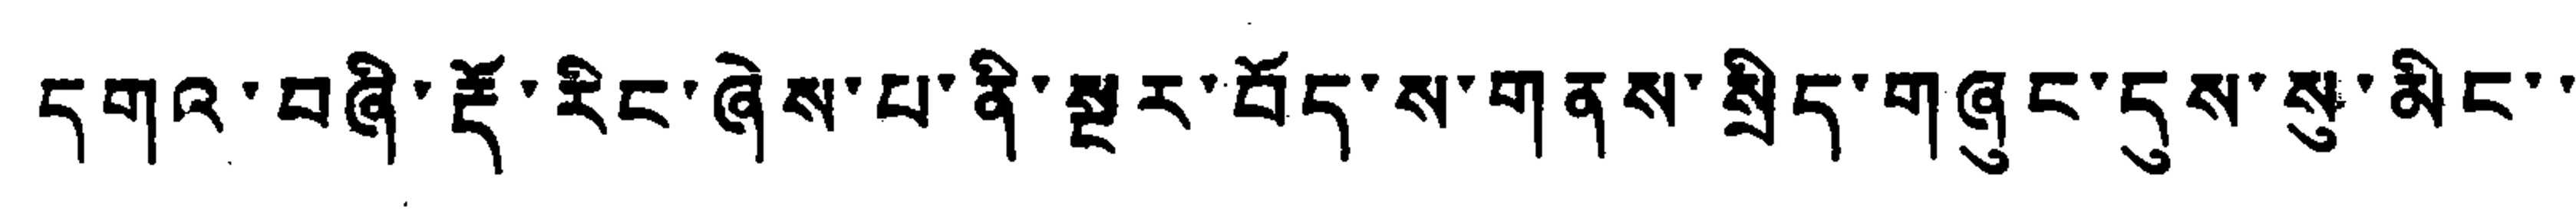དགའ་བཞི་རྡོ་རིང་ཞེས་པ་ནི་སྔར་བོད་ས་གནས་སྲིད་གཞུང་དུས་སུ་མིང་་
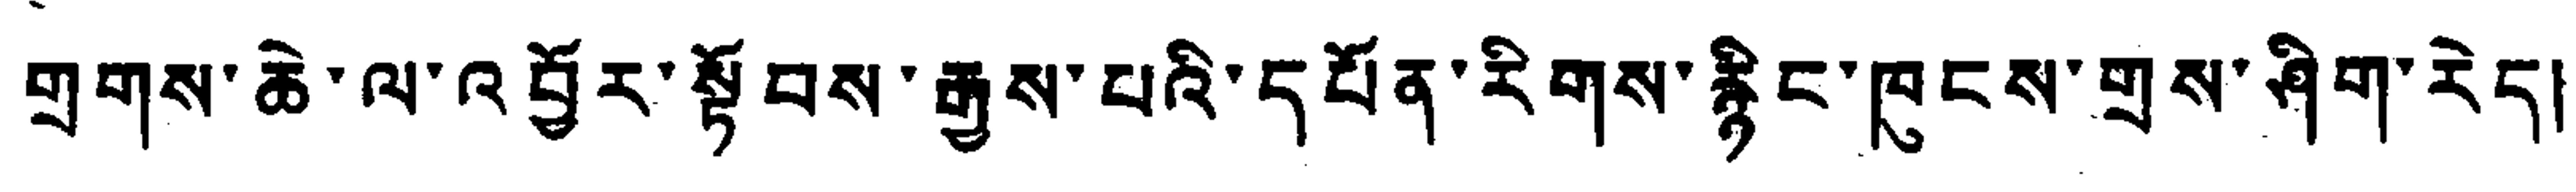གྲགས་ཆེ་ལ་འབྱོར་སྟོབས་རྒྱས་པའི་དཔོན་རིགས་རྙིང་ཁུངས་གྲས་ཤིག་རེད།
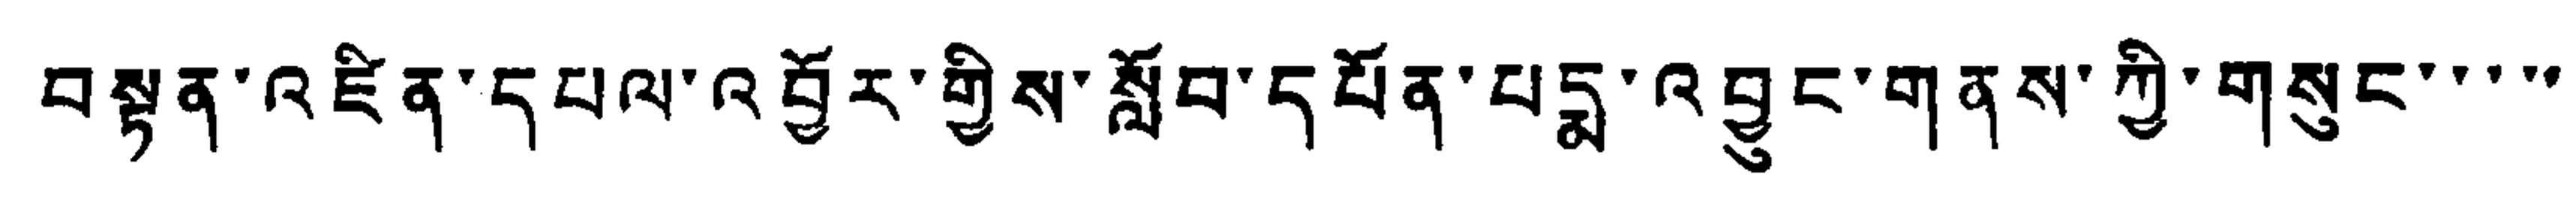བསྟན་འཛིན་དཔལ་འབྱོར་གྱིས་སློབ་དཔོན་པདྨ་འབྱུང་གནས་ཀྱི་གསུང་་་་་
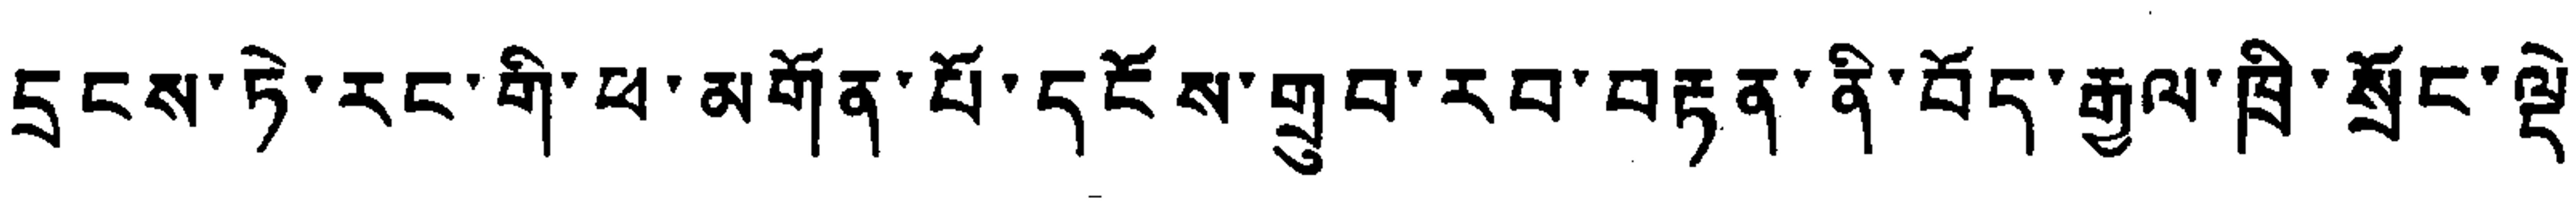དྲངས་ཏེ་རང་གི་ཕ་མགོན་པོ་དངོས་གྲུབ་རབ་བརྟན་ནི་བོད་རྒྱལ་ཁྲི་སྲོང་ལྡེ་
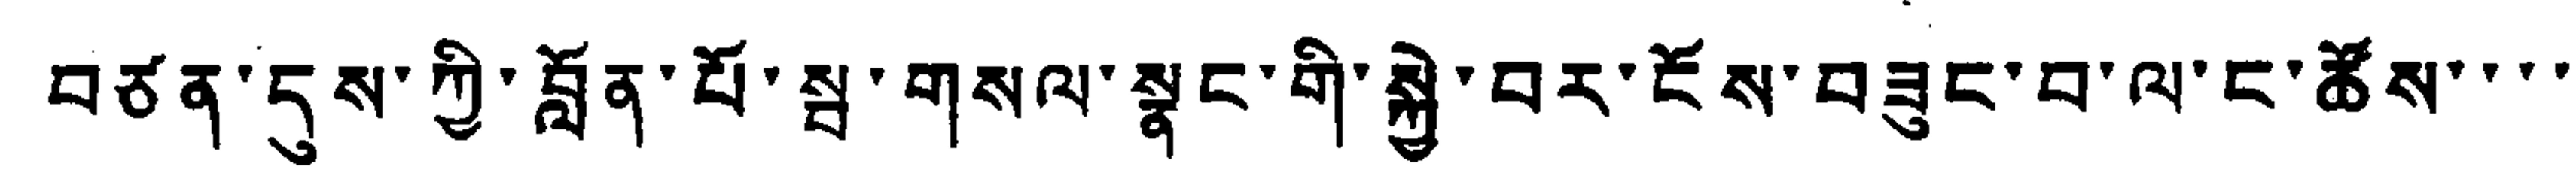བཙན་དུས་ཀྱི་བློན་པོ་སྦ་གསལ་སྣང་གི་སྐྱེ་བར་ངོས་བཟུང་བ་ལ་ང་ཚོས་་་་
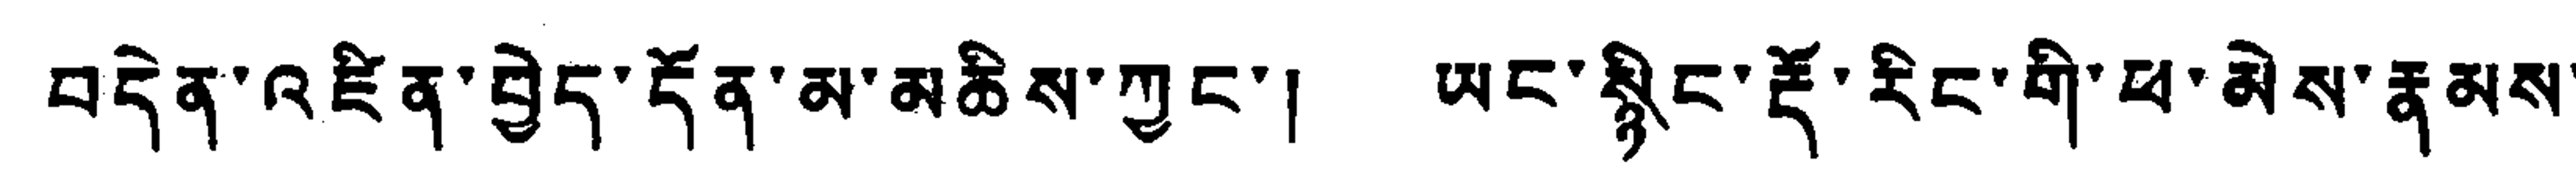བདེན་འཛིན་བྱེད་དོན་མ་མཆིས་ཀྱང་། ཡང་སྙིང་རྡོ་རིང་གི་ཕ་མེས་རྣམས་
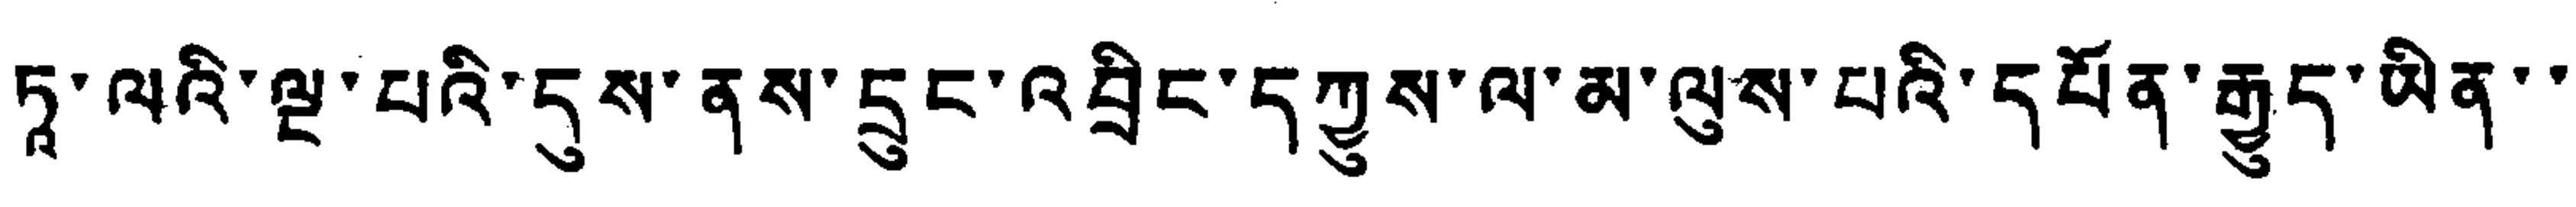ཏཱ་ལའི་ལྔ་པའི་དུས་ནས་དྲུང་འབྲིང་དཀྱུས་ལ་མ་ལུས་པའི་དཔོན་རྒྱུད་ཡིན་་
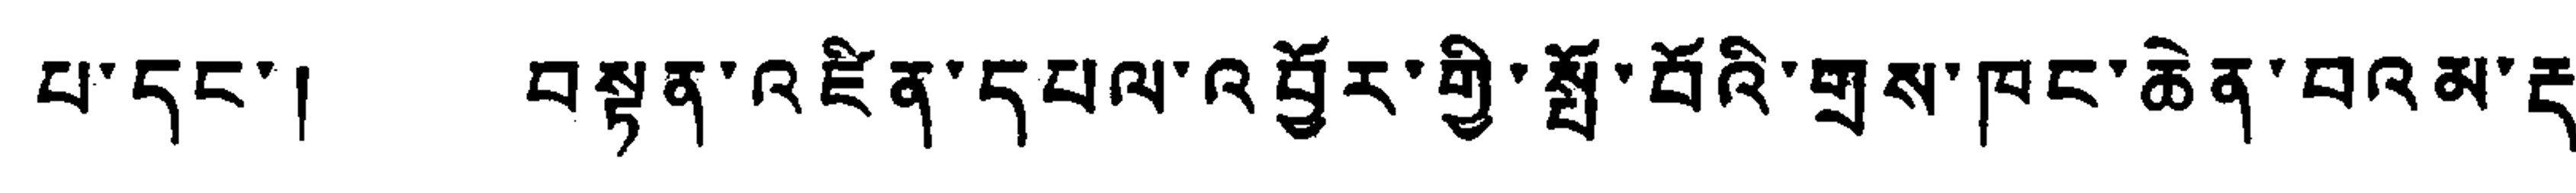པ་དང་། བསྟན་འཛིན་དཔལ་འབྱོར་གྱི་སྤྲོ་བོའི་གྲས་ཁང་ཆེན་བའམ་རྡ་
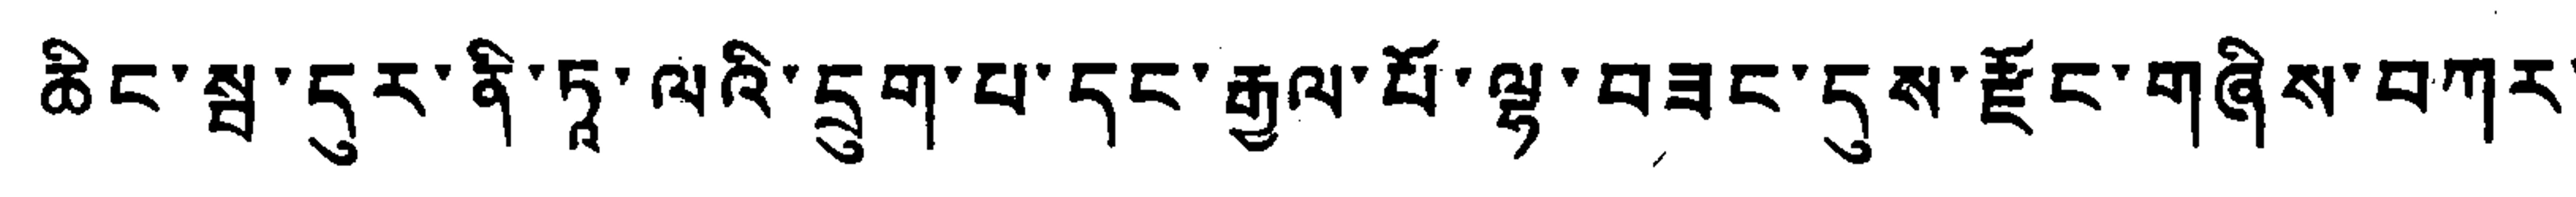ཆིང་སྦ་དུར་ནི་ཏཱ་ལའི་དྲུག་པ་དང་རྒྱལ་པོ་ལྷ་བཟང་དུས་རྫོང་གཞིས་བཀར་
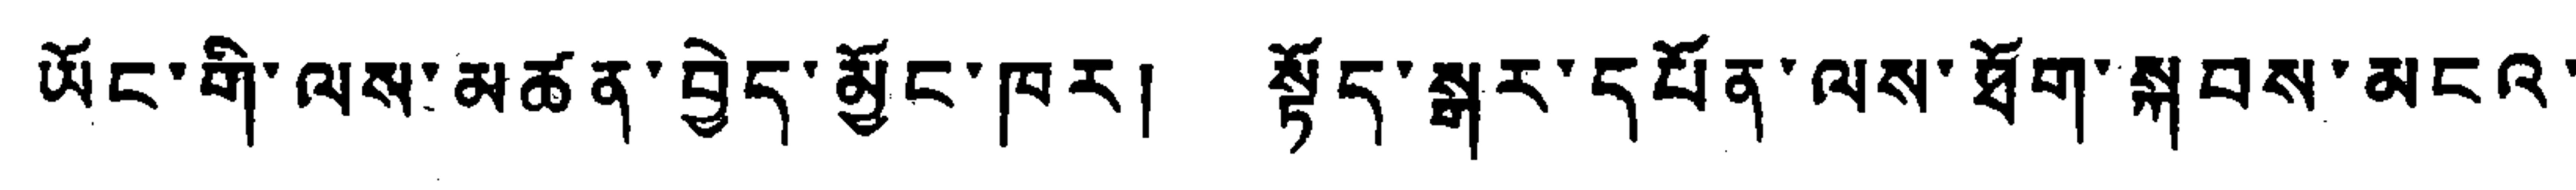ཡོང་གི་ལས་མཚན་བྱེད་མྱོང་ཁར། སྟོད་སྒར་དཔོན་ལས་ཐོག་སྐབས་མངའ་
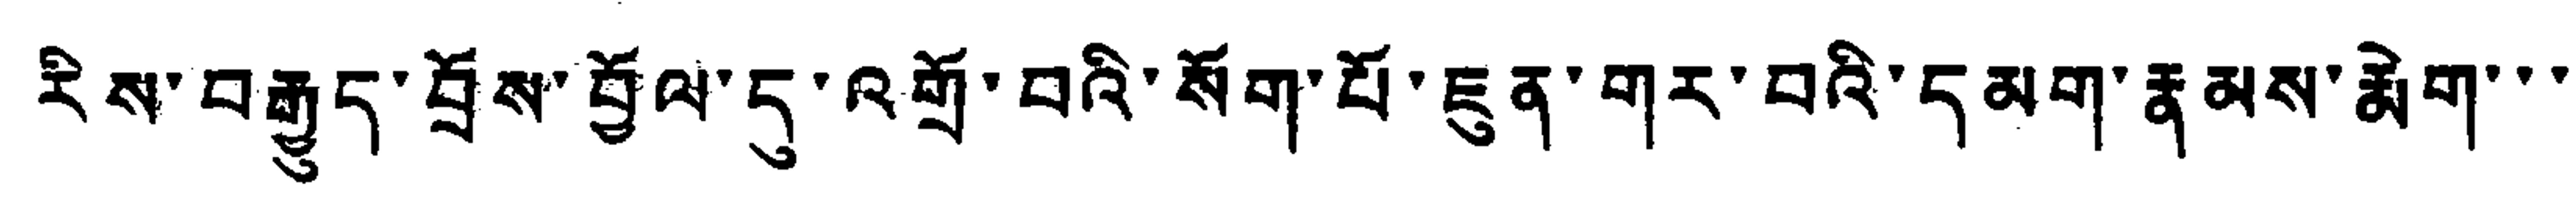རིས་བརྒྱུད་བྲོས་བྲོལ་དུ་འགྲོ་བའི་སོག་པོ་ཇུན་གར་བའི་དམག་རྣམས་རྨེག་་་
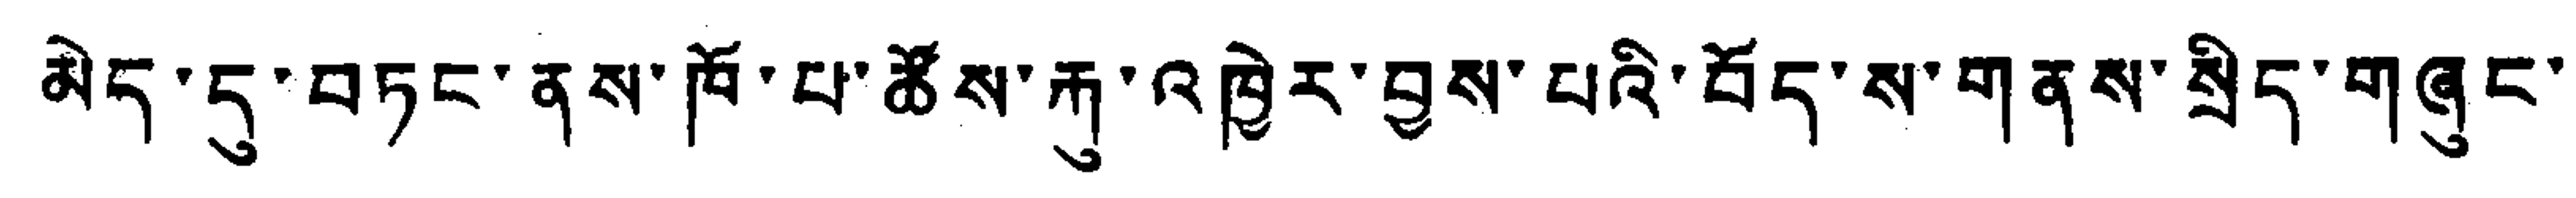མེད་དུ་བཏང་ནས་ཁོ་པ་ཚོས་རྒུ་འཁྱེར་བྱས་པའི་བོད་ས་གནས་སྲིད་གཞུང་
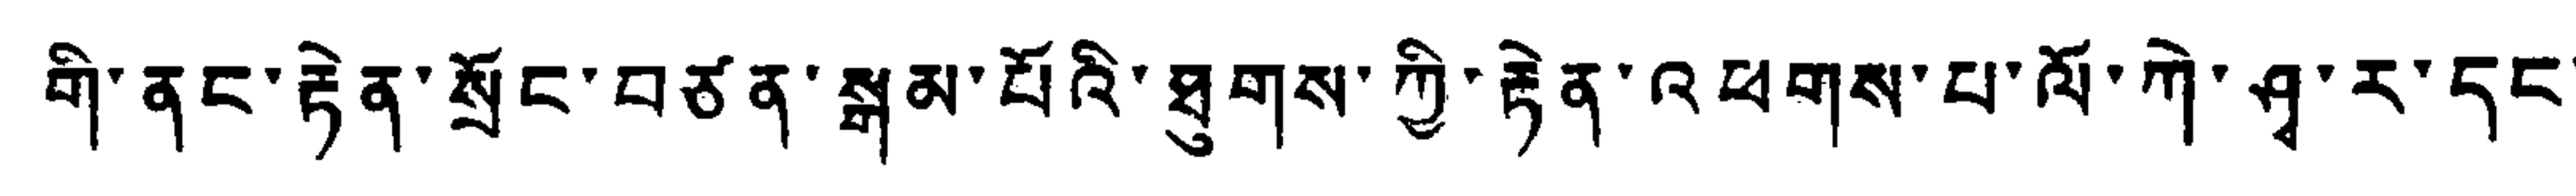གི་ནང་རྟེན་སྲོང་བཙན་སྒམ་པོའི་ཐུགས་ཀྱི་རྟེན་འཕགས་པ་ལོ་ཀེ་ཤྭ་ར་དང་
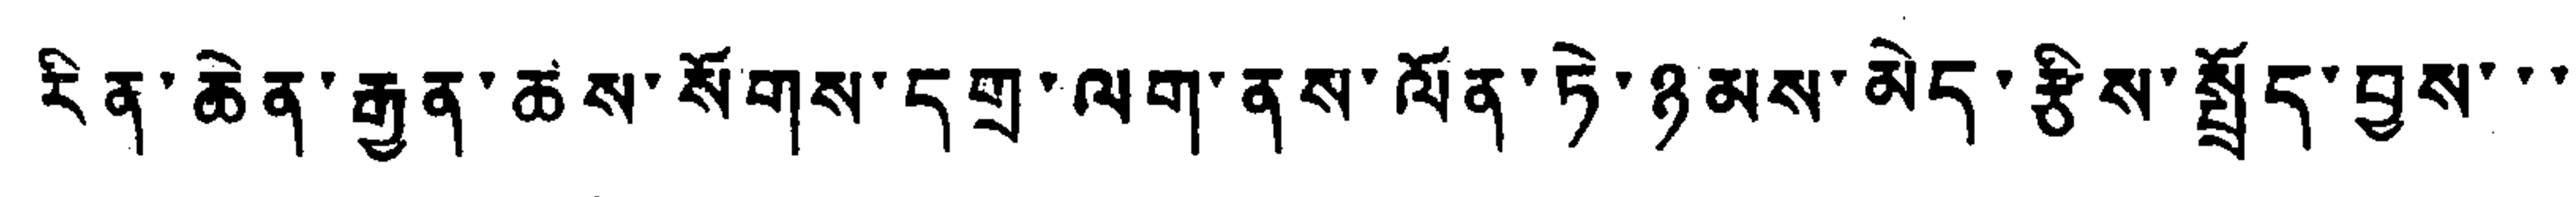རིན་ཆེན་རྒྱན་ཆས་སོགས་དགྲ་ལག་ནས་ལོན་ཏེ་ཉམས་མེད་རྩིས་སྤྲོད་བྱས་་་
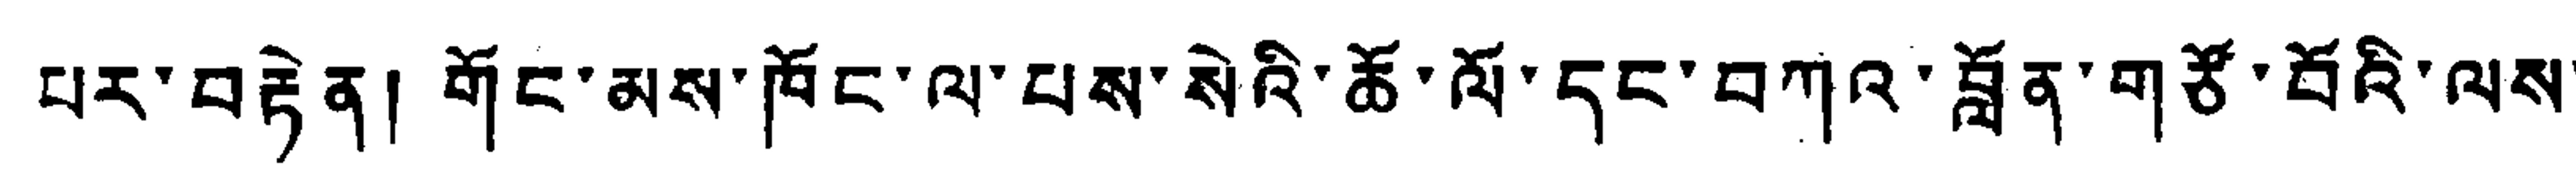པར་བརྟེན། གོང་མས་ཁོང་ལ་པས་སེའི་ཆོ་ལོ་དང་བཀའ་བློན་གཙོ་བོའི་ལས་
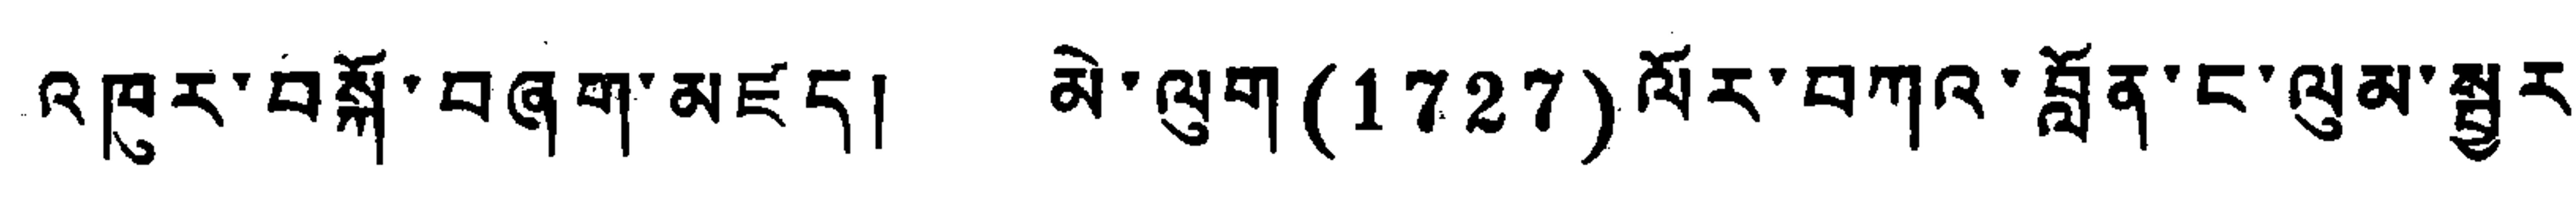འཁུར་བསྐོ་བཞག་མཛད། མེ་ལུག (1727) ལོར་བཀའ་བློན་ང་ལུམ་སྦྱར་
